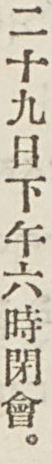二十九日下午六時閉會。
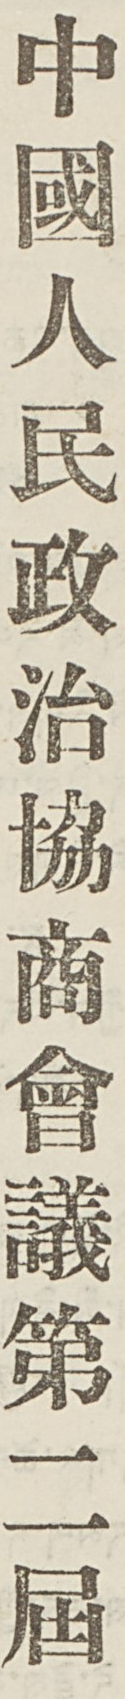中國人民政治協商會議第二屆
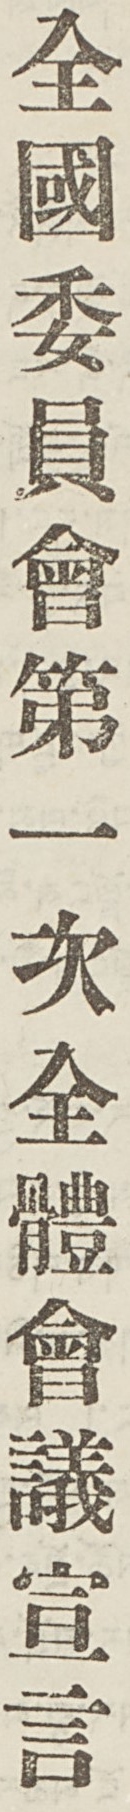全國委員會第一次全體會議宣言
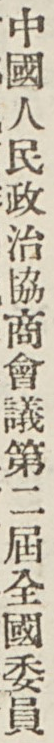中國人民政治協商會議第二屆全國委員
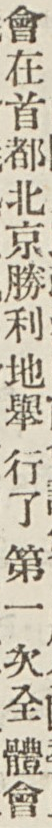會在首都北京勝利地舉 行了 第一次全體會
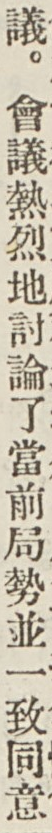議。會議熱烈地討論了當前局勢並一致同意
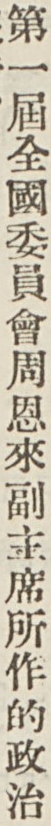第一屆全國委員會周恩來副主席所作的政治
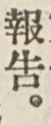報告。
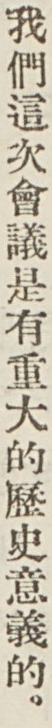我們這次會議是有重大的歷史意義的。
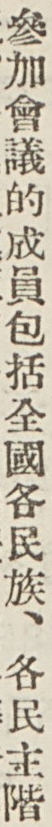參加會議的成員包括全國各民族、各民主階
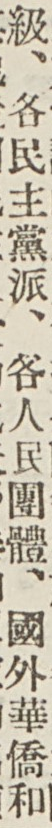級、各民主黨派、各人民團體、國外華僑和
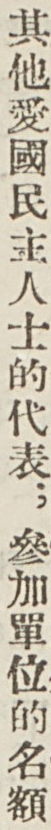其他愛國民主人士的代表；參加單位的名額
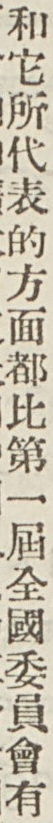和它所代表的方面都比第一屆全國委員會有
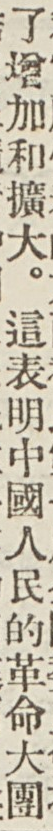了增加和擴大。這表明中國人民的革命大團
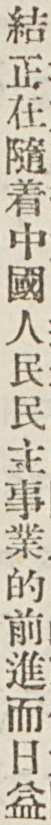結正在隨着中國人民民主事業的前進而日益
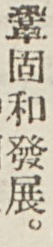鞏固和發展。
